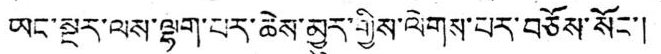ཡང་སྔར་ལས་ལྷག་པར་ཆེས་མྱུར་གྱིས་ལེགས་པར་བཅོས་སོང་།
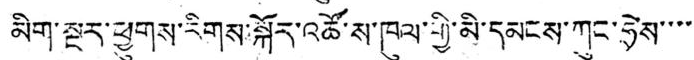མིག་སྔར་ཕྱུགས་རིགས་སྐོར་འཚོ་ས་ཁུལ་གྱི་མི་དམངས་ཀུང་ཧྲེས་་་་
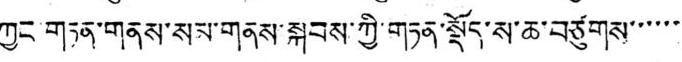ཀྱང་གཏན་གནས་སམ་གནས་སྐབས་ཀྱི་གཏན་སྡོད་ས་ཆ་བཙུགས་་་་་་
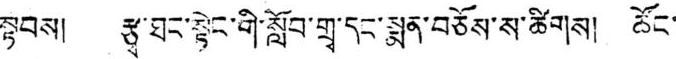སྟབས། རྩྭ་ཐང་སྟེང་གི་སློབ་གྲྭ་དང་སྨན་བཅོས་ས་ཚིགས། ཚོང་
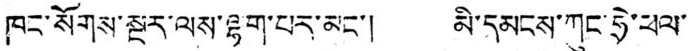ཁང་སོགས་སྔར་ལས་ལྷག་པར་མང་། མི་དམངས་ཀུང་ཧྲེ་ཕལ་
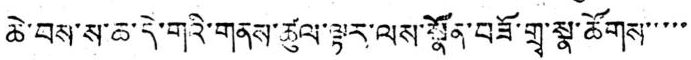ཆེ་བས་ས་ཆ་དེ་གའི་གནས་ཚུལ་ལྟར་ལས་སྣོན་བཟོ་གྲྭ་སྣ་ཚོགས་་་་་
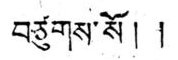བཙུགས་སོ། །
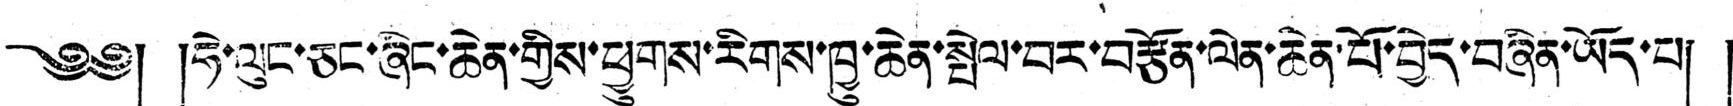༄༅། །ཧེ་ལུང་ཅང་ཞིང་ཆེན་གྱིས་ཕྱུགས་རིསྒ་ཁྱུ་ཆེན་སྤེལ་བར་བརྩོན་ལེན་ཆེན་པོ་བྱེད་བཞིན་ཡོད་པ། །
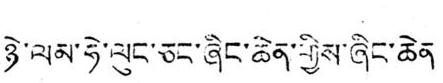ཉེ་ལམ་ཧེ་ལུང་ཅང་ཞིང་ཆེན་གྱིས་ཞིང་ཆེན
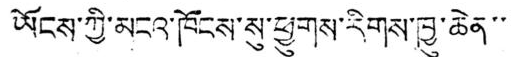ཡོངས་ཀྱི་མངའ་ཁོངས་སུ་ཕྱུགས་རིགས་ཁྱུ་ཆེན་་་
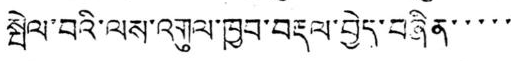སྤེལ་བའི་ལས་འགུལ་ཁྱབ་བརྡལ་བྱེད་བཞིན་་་་་
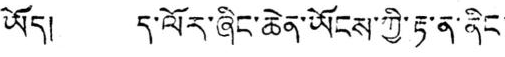ཡོད། ད་ལོར་ཞིང་ཆེན་ཡོངས་ཀྱི་རྟ་ན་ནིང་
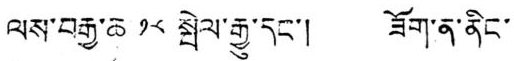ལས་བརྒྱ་ཆ ༡༨ སྤེལ་རྒྱུ་དང་། ཟོག་ན་ནིང་
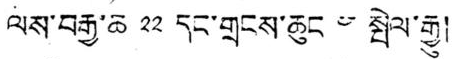ལས་བརྒྱ་ཆ ༢༢ དང་གྲངས་ཆུང ༤ སྤེལ་རྒྱུ།
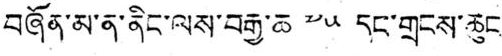བཞོན་མ་ན་ནིང་ལས་བརྒྱ་ཆ ༧༥ དང་གྲངས་ཆུང་
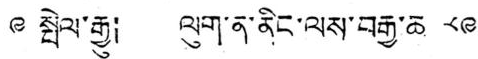༩ སྤེལ་རྒྱུ། ལུག་ན་ནིང་ལས་བརྒྱ་ཆ ༨༩
